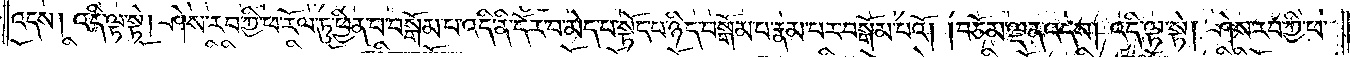འདས། འདི་ལྟ་སྟེ། ཤེས་རབ་ཀྱི་ཕ་རོལ་ཏུ་ཕྱིན་པ་བསྒོམ་པ་འདི་ནི་དོར་བ་མེད་པ་སྟོང་པ་ཉིད་བསྒོམ་པ་རྣམ་པར་བསྒོམ་པའོ། །བཅོམ་ལྡན་འདས། འདི་ལྟ་སྟེ། ཤེས་རབ་ཀྱི་ཕ་
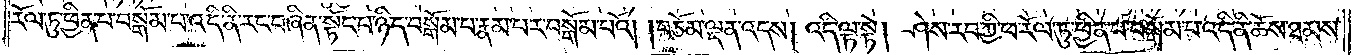རོལ་ཏུ་ཕྱིན་པ་བསྒོམ་པ་འདི་ནི་རང་བཞིན་སྟོང་པ་ཉིད་བསྒོམ་པ་རྣམ་པར་བསྒོམ་པའོ། །བཅོམ་ལྡན་འདས། འདི་ལྟ་སྟེ། ཤེས་རབ་ཀྱི་ཕ་རོལ་ཏུ་ཕྱིན་པ་བསྒོམ་པ་འདི་ནི་ཆོས་ཐམས་
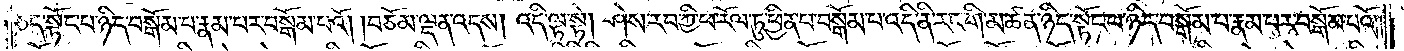ཅད་སྟོང་པ་ཉིད་བསྒོམ་པ་རྣམ་པར་བསྒོམ་པའོ། །བཅོམ་ལྡན་འདས། འདི་ལྟ་སྟེ། ཤེས་རབ་ཀྱི་ཕ་རོལ་ཏུ་ཕྱིན་པ་བསྒོམ་པ་འདི་ནི་རང་གི་མཚན་ཉིད་སྟོང་པ་ཉིད་བསྒོམ་པ་རྣམ་པར་བསྒོམ་པའོ། །
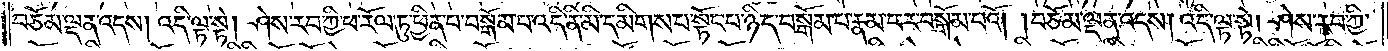བཅོམ་ལྡན་འདས། འདི་ལྟ་སྟེ། ཤེས་རབ་ཀྱི་ཕ་རོལ་ཏུ་ཕྱིན་པ་བསྒོམ་པ་འདི་ནི་མི་དམིགས་པ་སྟོང་པ་ཉིད་བསྒོམ་པ་རྣམ་པར་བསྒོམ་པའོ། །བཅོམ་ལྡན་འདས། འདི་ལྟ་སྟེ། ཤེས་རབ་ཀྱི་
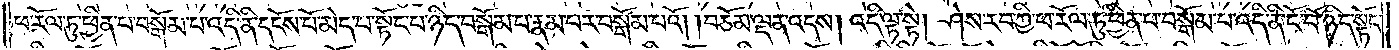ཕ་རོལ་ཏུ་ཕྱིན་པ་བསྒོམ་པ་འདི་ནི་དངོས་པོ་མེད་པ་སྟོང་པ་ཉིད་བསྒོམ་པ་རྣམ་པར་བསྒོམ་པའོ། །བཅོམ་ལྡན་འདས། འདི་ལྟ་སྟེ། ཤེས་རབ་ཀྱི་ཕ་རོལ་ཏུ་ཕྱིན་པ་བསྒོམ་པ་འདི་ནི་ངོ་བོ་ཉིད་སྟོང་
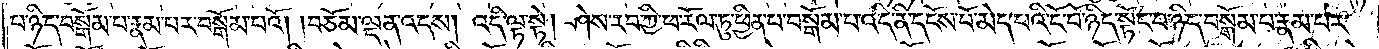པ་ཉིད་བསྒོམ་པ་རྣམ་པར་བསྒོམ་པའོ། །བཅོམ་ལྡན་འདས། འདི་ལྟ་སྟེ། ཤེས་རབ་ཀྱི་ཕ་རོལ་ཏུ་ཕྱིན་པ་བསྒོམ་པ་འདི་ནི་དངོས་པོ་མེད་པའི་ངོ་བོ་ཉིད་སྟོང་པ་ཉིད་བསྒོམ་པ་རྣམ་པར་
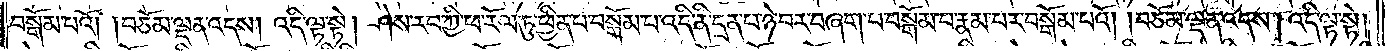བསྒོམ་པའོ། །བཅོམ་ལྡན་འདས། འདི་ལྟ་སྟེ། ཤེས་རབ་ཀྱི་ཕ་རོལ་ཏུ་ཕྱིན་པ་བསྒོམ་པ་འདི་ནི་དྲན་པ་ཉེ་བར་བཞག་པ་བསྒོམ་པ་རྣམ་པར་བསྒོམ་པའོ། །བཅོམ་ལྡན་འདས། འདི་ལྟ་སྟེ།
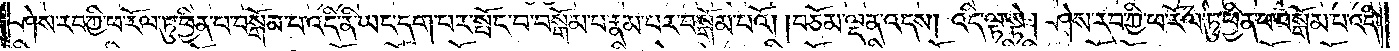ཤེས་རབ་ཀྱི་ཕ་རོལ་ཏུ་ཕྱིན་པ་བསྒོམ་པ་འདི་ནི་ཡང་དག་པར་སྤོང་པ་བསྒོམ་པ་རྣམ་པར་བསྒོམ་པའོ། །བཅོམ་ལྡན་འདས། འདི་ལྟ་སྟེ། ཤེས་རབ་ཀྱི་ཕ་རོལ་ཏུ་ཕྱིན་པ་བསྒོམ་པ་འདི་
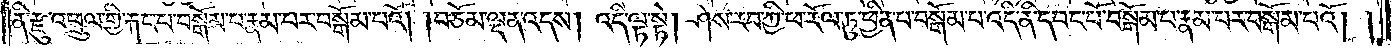ནི་རྫུ་འཕྲུལ་གྱི་རྐང་པ་བསྒོམ་པ་རྣམ་པར་བསྒོམ་པའོ། །བཅོམ་ལྡན་འདས། འདི་ལྟ་སྟེ། ཤེས་རབ་ཀྱི་ཕ་རོལ་ཏུ་ཕྱིན་པ་བསྒོམ་པ་འདི་ནི་དབང་པོ་བསྒོམ་པ་རྣམ་པར་བསྒོམ་པའོ། །
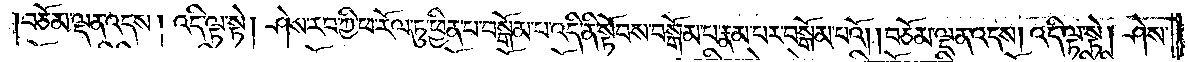བཅོམ་ལྡན་འདས། འདི་ལྟ་སྟེ། ཤེས་རབ་ཀྱི་ཕ་རོལ་ཏུ་ཕྱིན་པ་བསྒོམ་པ་འདི་ནི་སྟོབས་བསྒོམ་པ་རྣམ་པར་བསྒོམ་པའོ། །བཅོམ་ལྡན་འདས། འདི་ལྟ་སྟེ། ཤེས་
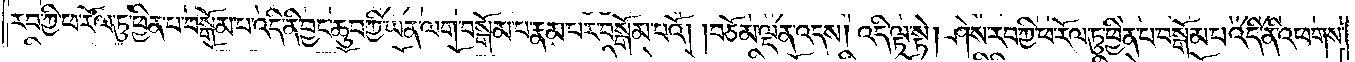རབ་ཀྱི་ཕ་རོལ་ཏུ་ཕྱིན་པ་བསྒོམ་པ་འདི་ནི་བྱང་ཆུབ་ཀྱི་ཡན་ལག་བསྒོམ་པ་རྣམ་པར་བསྒོམ་པའོ། །བཅོམ་ལྡན་འདས། འདི་ལྟ་སྟེ། ཤེས་རབ་ཀྱི་ཕ་རོལ་ཏུ་ཕྱིན་པ་བསྒོམ་པ་འདི་ནི་འཕགས་
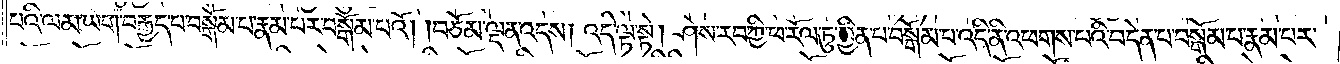པའི་ལམ་ཡན་ལག་བརྒྱད་པ་བསྒོམ་པ་རྣམ་པར་བསྒོམ་པའོ། །བཅོམ་ལྡན་འདས། འདི་ལྟ་སྟེ། ཤེས་རབ་ཀྱི་ཕ་རོལ་ཏུ་ཕྱིན་པ་བསྒོམ་པ་འདི་ནི་འཕགས་པའི་བདེན་པ་བསྒོམ་པ་རྣམ་པར་
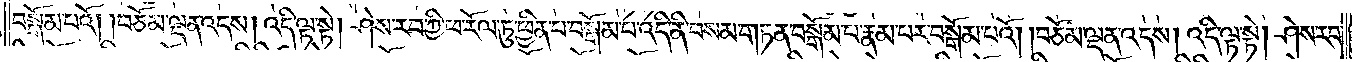བསྒོམ་པའོ། །བཅོམ་ལྡན་འདས། འདི་ལྟ་སྟེ། ཤེས་རབ་ཀྱི་ཕ་རོལ་ཏུ་ཕྱིན་པ་བསྒོམ་པ་འདི་ནི་བསམ་གཏན་བསྒོམ་པ་རྣམ་པར་བསྒོམ་པའོ། །བཅོམ་ལྡན་འདས། འདི་ལྟ་སྟེ། ཤེས་རབ་
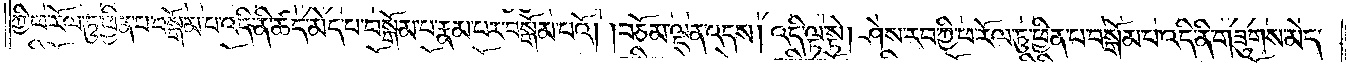ཀྱི་ཕ་རོལ་ཏུ་ཕྱིན་པ་བསྒོམ་པ་འདི་ནི་ཚད་མེད་པ་བསྒོམ་པ་རྣམ་པར་བསྒོམ་པའོ། །བཅོམ་ལྡན་འདས། འདི་ལྟ་སྟེ། ཤེས་རབ་ཀྱི་ཕ་རོལ་ཏུ་ཕྱིན་པ་བསྒོམ་པ་འདི་ནི་གཟུགས་མེད་
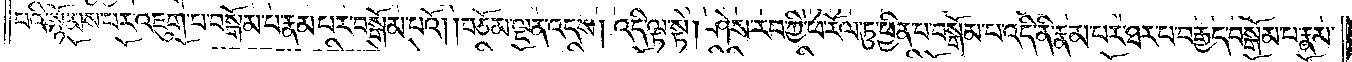པའི་སྙོམས་པར་འཇུག་པ་བསྒོམ་པ་རྣམ་པར་བསྒོམ་པའོ། །བཅོམ་ལྡན་འདས། འདི་ལྟ་སྟེ། ཤེས་རབ་ཀྱི་ཕ་རོལ་ཏུ་ཕྱིན་པ་བསྒོམ་པ་འདི་ནི་རྣམ་པར་ཐར་པ་བརྒྱད་བསྒོམ་པ་རྣམ་
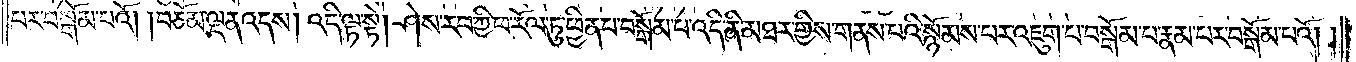པར་བསྒོམ་པའོ། །བཅོམ་ལྡན་འདས། འདི་ལྟ་སྟེ། ཤེས་རབ་ཀྱི་ཕ་རོལ་ཏུ་ཕྱིན་པ་བསྒོམ་པ་འདི་ནི་མཐར་གྱིས་གནས་པའི་སྙོམས་པར་འཇུག་པ་བསྒོམ་པ་རྣམ་པར་བསྒོམ་པའོ། །
